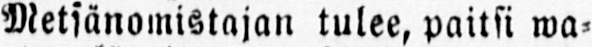Metsänomistajan tulee, paitsi wa-
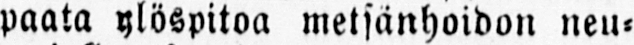paata ylöspitoa metsänhoidon neu-
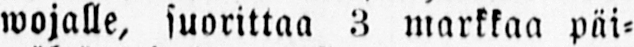wojalle, suorittaa 3 markkaa päi-
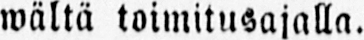wältä toimitusajalla.
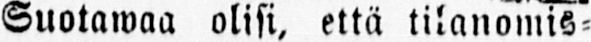Suotawaa olisi, että tilanomis-
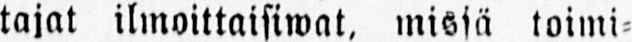tajat ilmoittaisiwat, missä toimi-
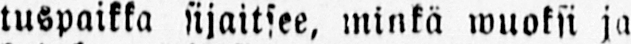tuspaikka sijaitsee, minkä wuoksi ja
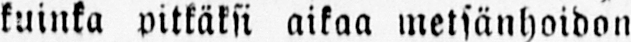kuinka pitkäksi aikaa metsänhoidon
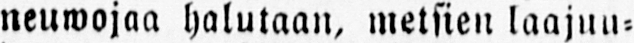neuwojaa halutaan, metsien laajuu-
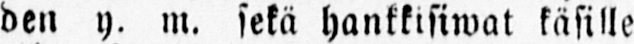den y. m. sekä hankkisiwat käsille
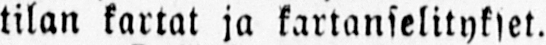tilan kartat ja kartanselitykset.
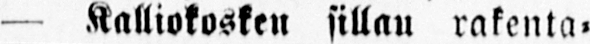— Kalliokosken sillau rakenta-
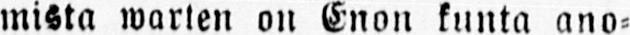mista warten on Enon kunta ano-
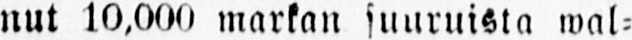nut 10,000 markan suuruista wal-
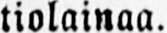tiolainaa.
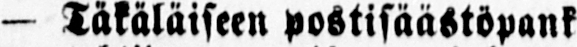— Täkäläiseen postisäästöpank-
